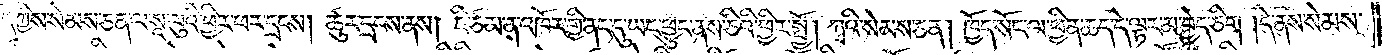ཁྱོད་ཀྱིས་སེམས་ཅན་ལ་སཱ་ལུའི་ཕྱིར་ཕར་དྲངས། ཚུར་དྲངས་ནས། ཇི་ཙམ་ན་འཁོར་གྱི་ནང་དུ་ཡང་ཕྱུང་ནས་ཅིའི་ཕྱིར་སྤྱོ། ཀྭའི་སེམས་ཅན། ཁྱོད་སོང་ལ་ཕྱིན་ཆད་དེ་ལྟར་མ་བྱེད་ཅིག །དེ་ནས་སེམས་
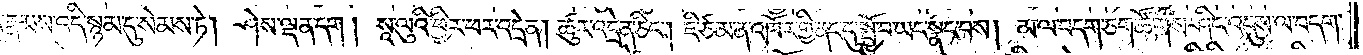ཅན་དེ་རྣམས་འདི་སྙམ་དུ་སེམས་ཏེ། ཤེས་ལྡན་དག །སཱ་ལུའི་ཕྱིར་ཕར་འདྲེན། ཚུར་འདྲེན་ཅིང༌། ཇི་ཙམ་ན་འཁོར་གྱི་ནང་དུ་སྤྱོ་བ་ཡང་སྣང་བས། མ་ལ་བདག་ཅག་ཚོགས་ཤིང་འདུས་ལ་བདག་
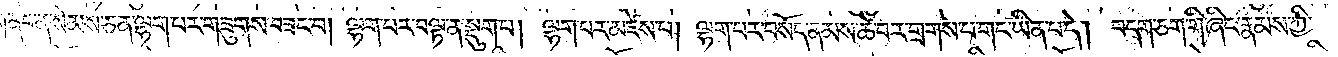ཅག་གི་ནང་ན་སེམས་ཅན་ལྷག་པར་གཟུགས་བཟང་བ། ལྷག་པར་བལྟ་ན་སྡུག་པ། ལྷག་པར་མཛེས་པ། ལྷག་པར་བསོད་ནམས་ཆེ་བར་གྲགས་པ་གང་ཡིན་པ་དེ། བདག་ཅག་གི་ཞིང་རྣམས་ཀྱི་
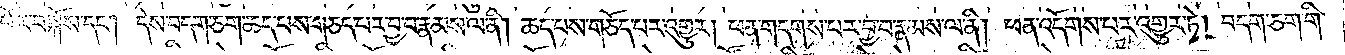བདག་པོར་བསྐོས་དང༌། དེས་བདག་ཅག་ཆད་པས་གཅད་པར་བྱ་བ་རྣམས་ལ་ནི། ཆད་པས་གཅོད་པར་འགྱུར། ཕན་གདགས་པར་བྱ་བ་རྣམས་ལ་ནི། ཕན་འདོགས་པར་འགྱུར་ཏེ། བདག་ཅག་གི་
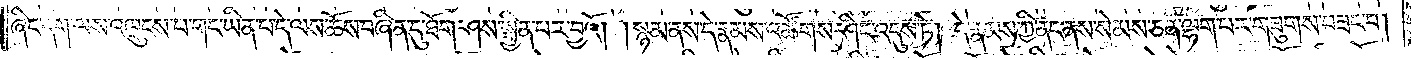ཞིང་དག་ལས་འཁྲུངས་པ་གང་ཡིན་པ་དེ་ལས་ཆོས་བཞིན་དུ་ཐོག་ཤས་སྦྱིན་པར་བྱའོ། །སྙམ་ནས་དེ་རྣམས་འཚོགས་ཤིང་འདུས་ཏེ། དེ་རྣམས་ཀྱི་ནང་ནས་སེམས་ཅན་ལྷག་པར་གཟུགས་བཟང་བ།
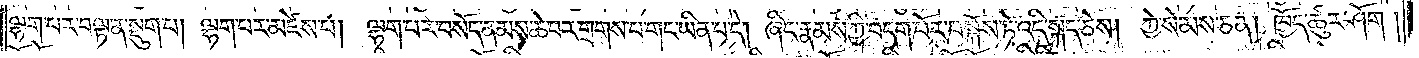ལྷག་པར་བལྟ་ན་སྡུག་པ། ལྷག་པར་མཛེས་པ། ལྷག་པར་བསོད་ནམས་ཆེ་བར་གྲགས་པ་གང་ཡིན་པ་དེ། ཞིང་རྣམས་ཀྱི་བདག་པོར་བསྐོས་ཏེ་འདི་སྐད་ཅེས། ཀྱེ་སེམས་ཅན། ཁྱོད་ཚུར་ཤོག །
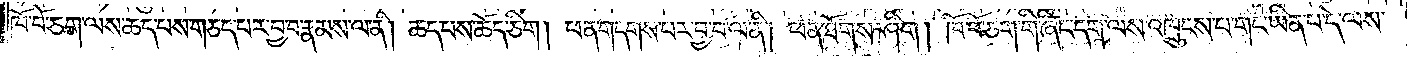ཁོ་བོ་ཅག་ལས་ཆད་པས་གཅད་པར་བྱ་བ་རྣམས་ལ་ནི། ཆད་པས་ཆོད་ཅིག །ཕན་གདགས་པར་བྱ་བ་ལ་ནི། ཕན་ཐོགས་ཤིག །ཁོ་བོ་ཅག་གི་ཞིང་དག་ལས་འཁྲུངས་པ་གང་ཡིན་པ་དེ་ལས་
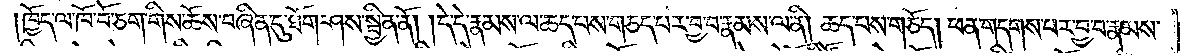།ཁྱོད་ལ་ཁོ་བོ་ཅག་གིས་ཆོས་བཞིན་དུ་ཐོག་ཤས་སྦྱིན་ནོ། །དེ་དེ་རྣམས་ལ་ཆད་པས་གཅད་པར་བྱ་བ་རྣམས་ལ་ནི། ཆད་པས་གཅོད། ཕན་གདགས་པར་བྱ་བ་རྣམས་
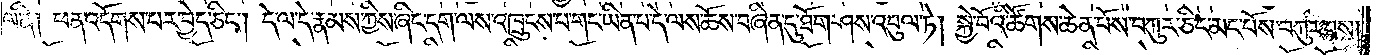ལ་ནི། ཕན་འདོགས་པར་བྱེད་ཅིང༌། དེ་ལ་དེ་རྣམས་ཀྱིས་ཞིང་དག་ལས་འཁྲུངས་པ་གང་ཡིན་པ་དེ་ལས་ཆོས་བཞིན་དུ་ཐོག་ཤས་འབུལ་ཏེ། སྐྱེ་བོའི་ཚོགས་ཆེན་པོས་བཀུར་ཅིང་མང་པོས་བཀུར་བས།
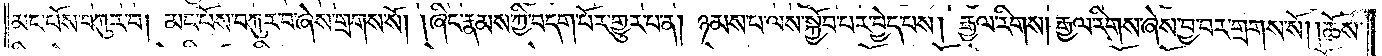མང་པོས་བཀུར་བ། མང་པོས་བཀུར་བ་ཞེས་གྲགས་སོ། །ཞིང་རྣམས་ཀྱི་བདག་པོར་གྱུར་པ་ན། ཉམས་པ་ལས་སྐྱོབ་པར་བྱེད་པས། རྒྱལ་རིགས། རྒྱལ་རིགས་ཞེས་བྱ་བར་གྲགས་སོ། །ཆོས་
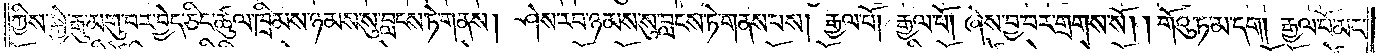ཀྱིས་སྐྱེ་རྒུ་མགུ་བར་བྱེད་ཅིང་ཚུལ་ཁྲིམས་ཉམས་སུ་བླངས་ཏེ་གནས། ཤེས་རབ་ཉམས་སུ་བླངས་ཏེ་གནས་པས། རྒྱལ་པོ། རྒྱལ་པོ། ཞེས་བྱ་བར་གྲགས་སོ། །གོའུ་ཏ་མ་དག །རྒྱལ་པོ་མང་
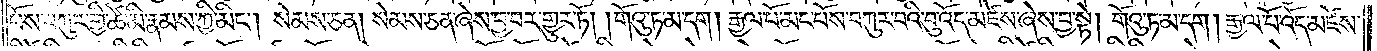པོས་བཀུར་གྱི་ཚེ་མི་རྣམས་ཀྱི་མིང༌། སེམས་ཅན། སེམས་ཅན་ཞེས་བྱ་བར་གྱུར་ཏོ། །གོའུ་ཏ་མ་དག །རྒྱལ་པོ་མང་པོས་བཀུར་བའི་བུ་འོད་མཛེས་ཞེས་བྱ་སྟེ། གོའུ་ཏ་མ་དག །རྒྱལ་པོ་འོད་མཛེས་
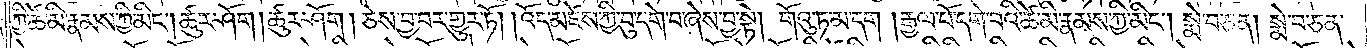ཀྱི་ཚེ་མི་རྣམས་ཀྱི་མིང༌། ཚུར་ཤོག །ཚུར་ཤོག །ཅེས་བྱ་བར་གྱུར་ཏོ། །འོད་མཛེས་ཀྱི་བུ་དགེ་བ་ཞེས་བྱ་སྟེ། གོའུ་ཏ་མ་དག །རྒྱལ་པོ་དགེ་བའི་ཚེ་མི་རྣམས་ཀྱི་མིང༌། སྨེ་བ་ཅན། སྨེ་བ་ཅན་
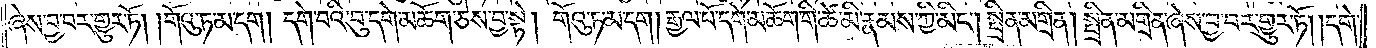ཞེས་བྱ་བར་གྱུར་ཏོ། །གོའུ་ཏ་མ་དག །དགེ་བའི་བུ་དགེ་མཆོག་ཅེས་བྱ་སྟེ། གོའུ་ཏ་མ་དག། རྒྱལ་པོ་དགེ་མཆོག་གི་ཚེ་མི་རྣམས་ཀྱི་མིང༌། སྤྲིན་མགྲིན། སྤྲིན་མགྲིན་ཞེས་བྱ་བར་གྱུར་ཏོ། །དགེ་
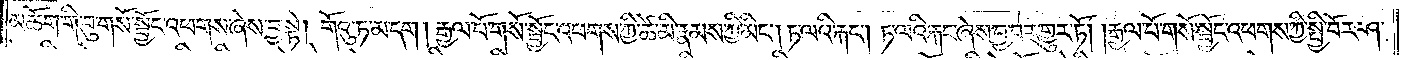མཆོག་གི་བུ་གསོ་སྦྱོང་འཕགས་ཞེས་བྱ་སྟེ། གོའུ་ཏ་མ་དག །རྒྱལ་པོ་གསོ་སྦྱོང་འཕགས་ཀྱི་ཚེ་མི་རྣམས་ཀྱི་མིང༌། ཏ་ལའི་རྐང༌། ཏ་ལའི་རྐང་ཞེས་བྱ་བར་གྱུར་ཏོ། །རྒྱལ་པོ་གསོ་སྦྱོང་འཕགས་ཀྱི་སྤྱི་བོར་ཤ་
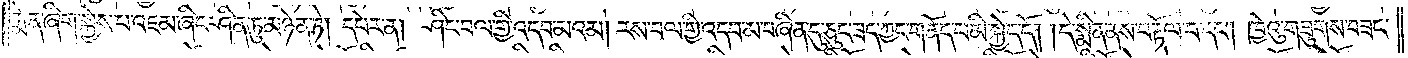རྨེན་ཞིག་སྐྱེས་པ་འཇམ་ཞིང་ཤིན་ཏུ་མཉེན་ཏེ། དཔེར་ན། ཤིང་བལ་གྱི་འདབ་མའམ། རས་བལ་གྱི་འདབ་མ་བཞིན་དུ་ཅུང་ཟད་ཀྱང་གནོད་པ་མི་སྐྱེད་དོ། །དེ་སྨིན་ནས་བརྟོལ་བ་དང༌། ཁྱེའུ་གཟུགས་བཟང་
